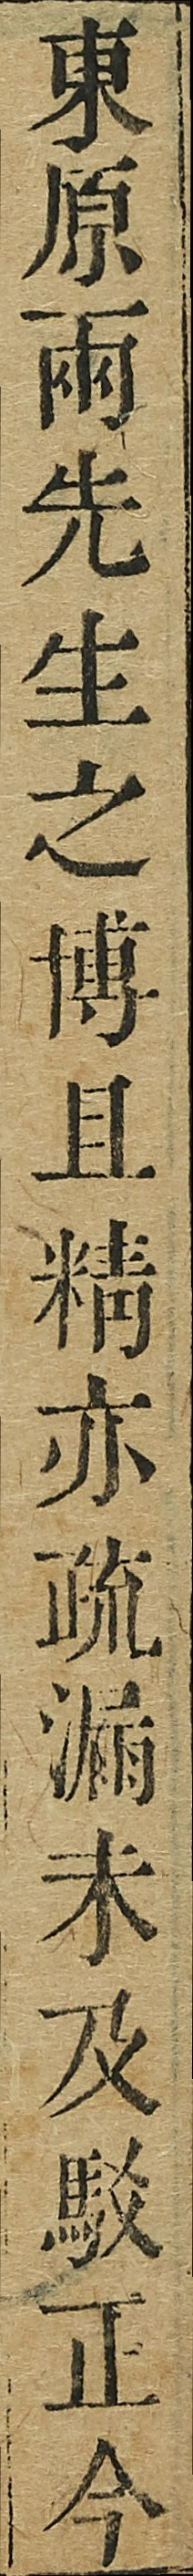東原兩先生之博且精亦疏漏未及駁正今
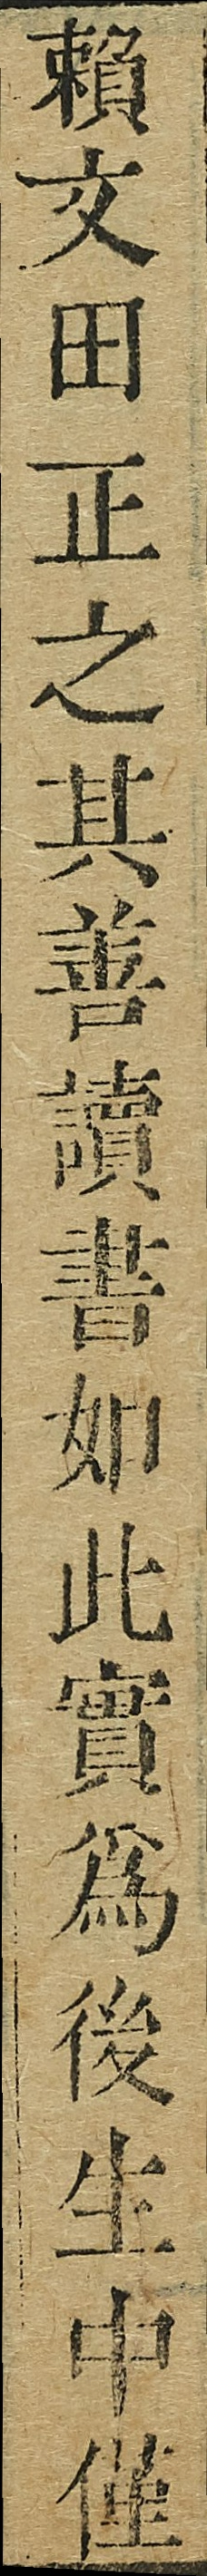賴文田正之其善讀書如此實爲後生中僅
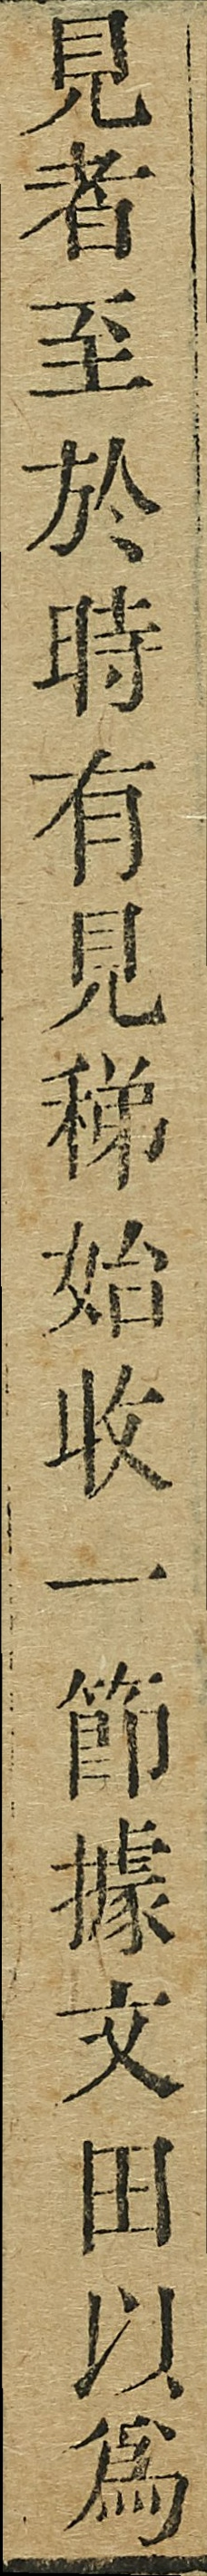見者至於時有見稊始收一節據文田以爲
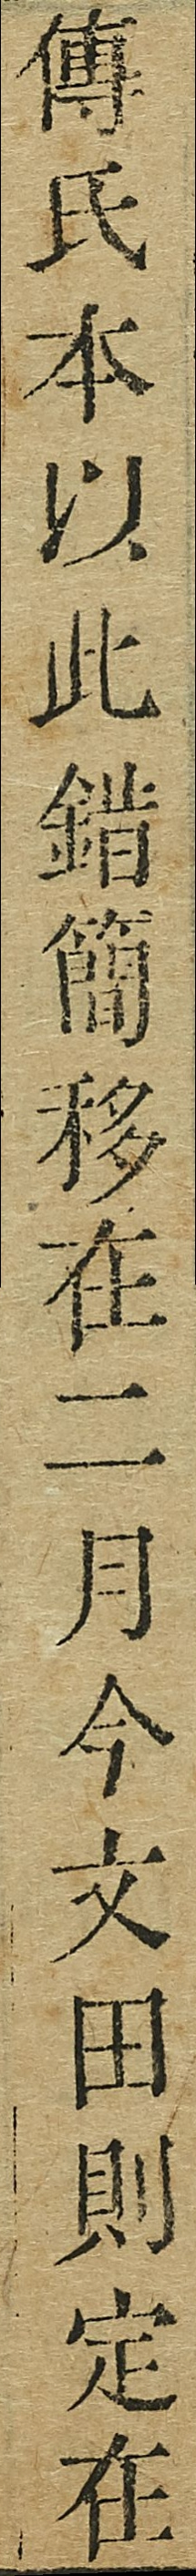傳氏本以此錯簡移在二月今文田則定在
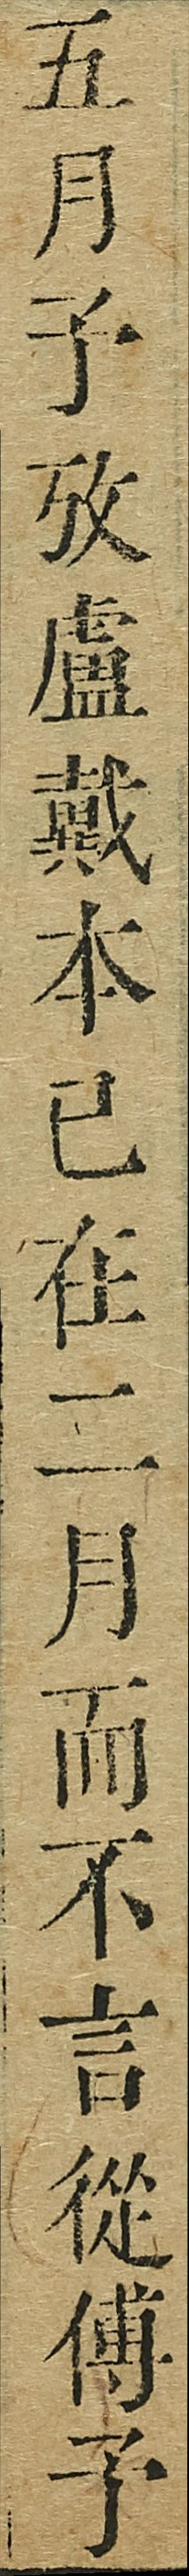五月予攷盧戴本已在二月而不言從傅予
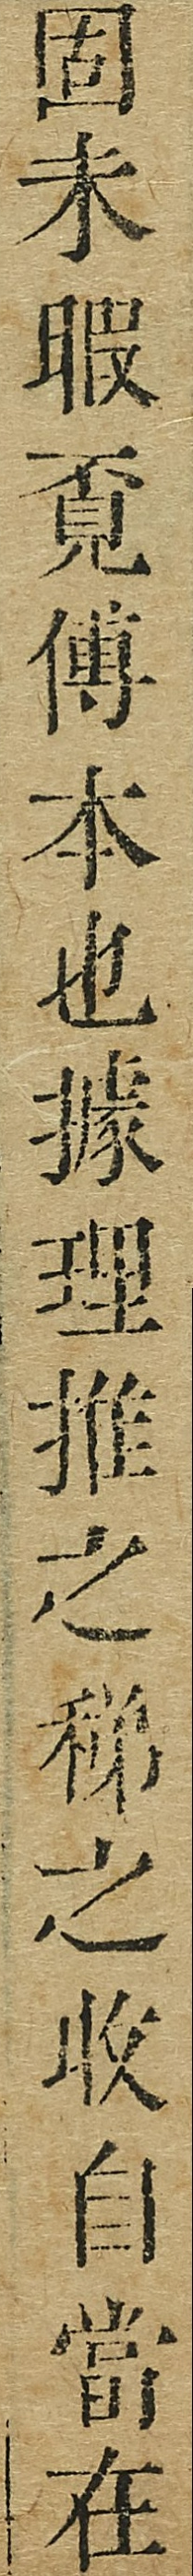固未暇覔傅本也據理推之稊之收自當在
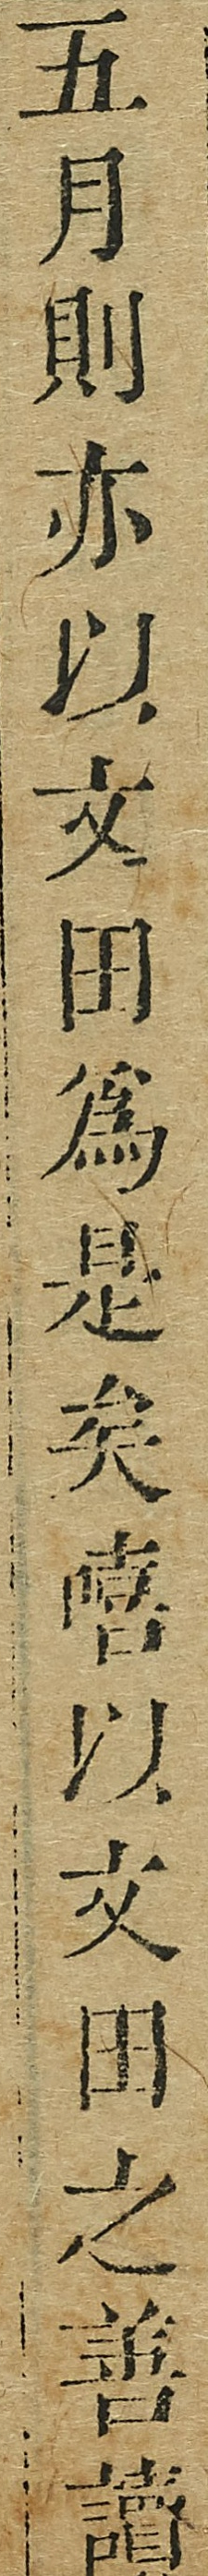五月則亦以文田爲是矣嘻以文田之善讀
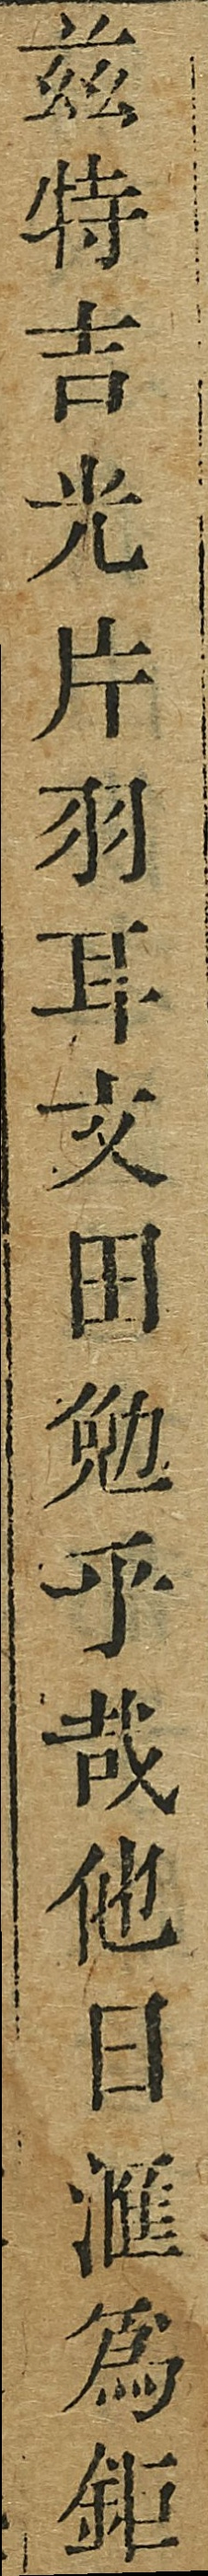兹特吉光片羽耳文田勉乎哉他日滙爲鉅
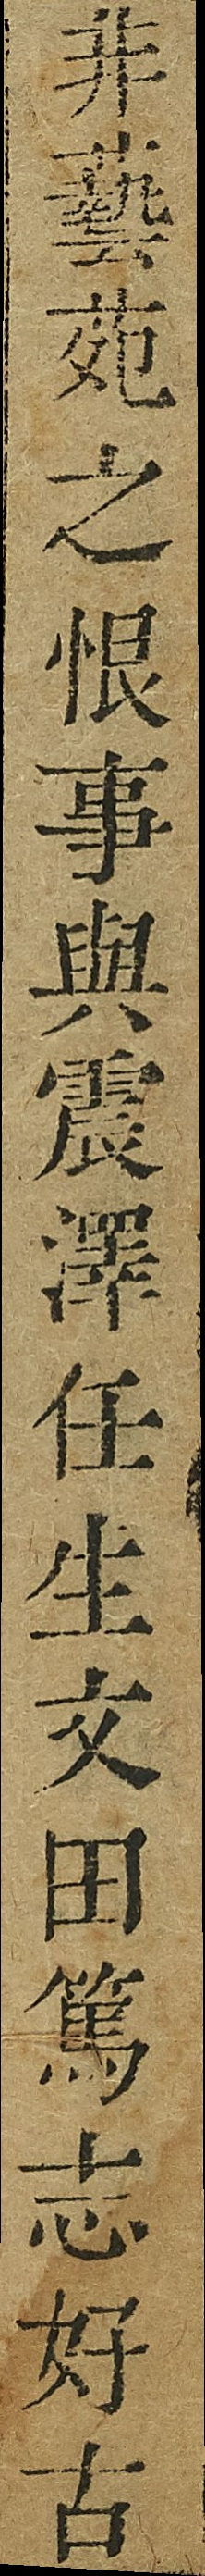非藝苑只恨事與震澤任生文田篤志好古
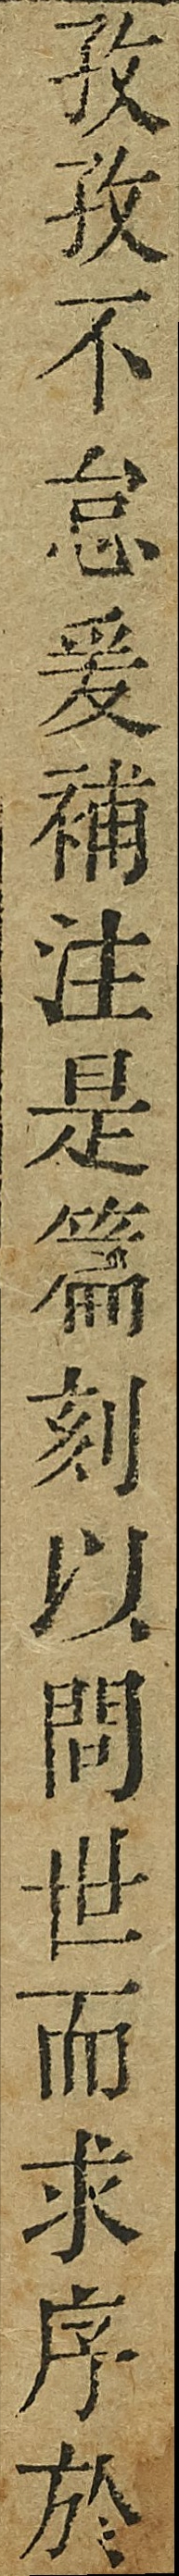孜孜不倦愛補注是篇刻以問世而求序於
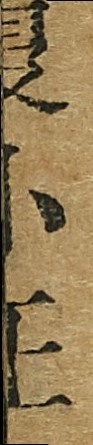夏小正
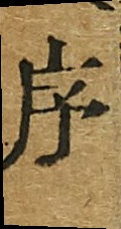序
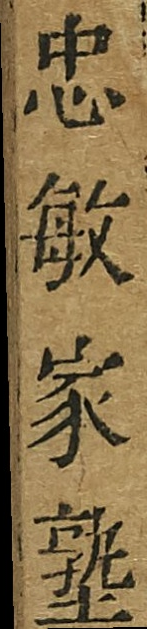忠敏家塾
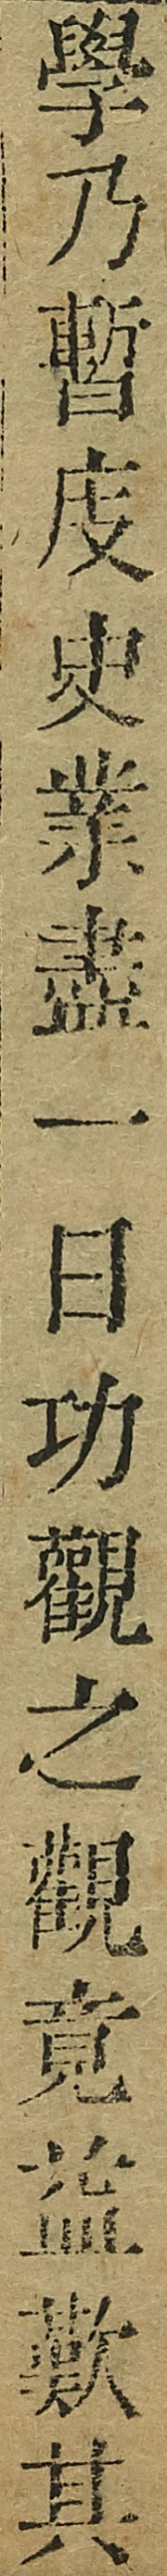學乃暫庋史業盡一日功觀之觀竟益歎其
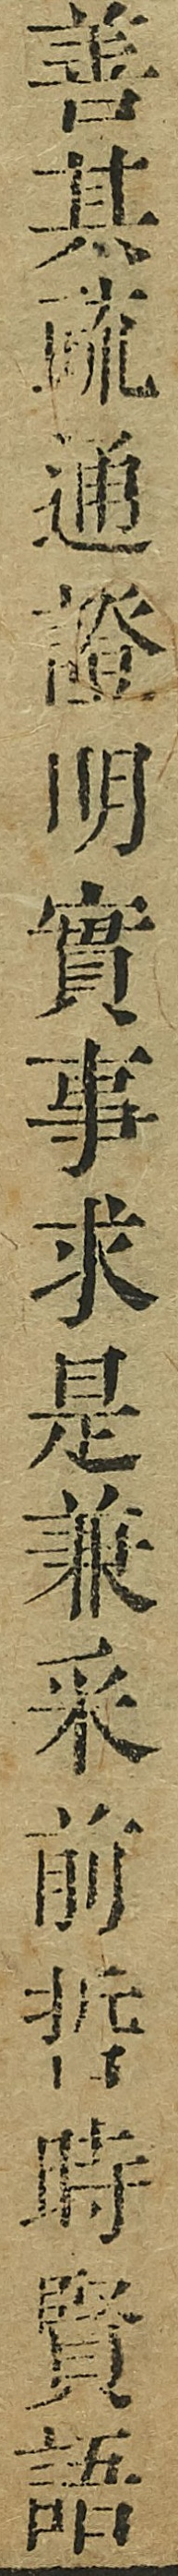善其疏通證明實事求是是兼采前這賢語
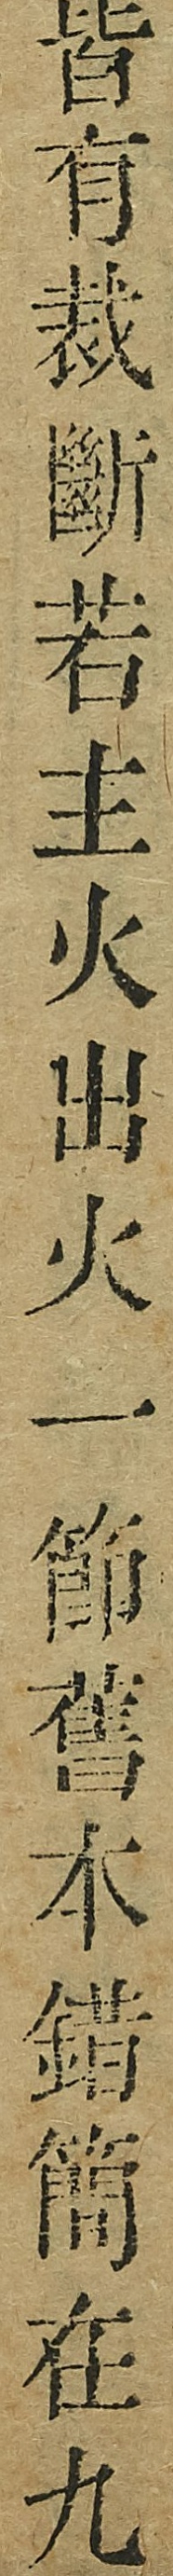皆有裁斷若主火出火一節舊本錯簡在九
